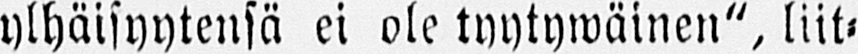ylhäisyytensä ei ole tyytywäinen", liit-
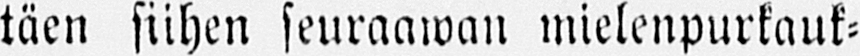täen siihen seuraawan mielenpurkauk-
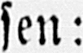sen:
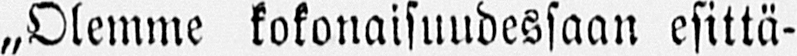„Olemme kokonaisuudessaan esittä-
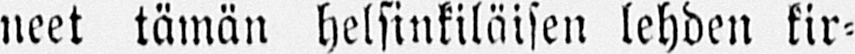neet tämän helsinkiläisen lehden kir-
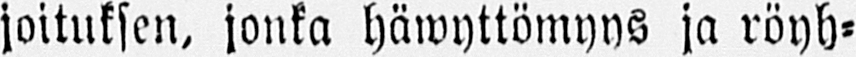joituksen, jonka häwyttömyys ja röyh-
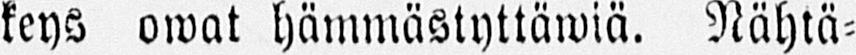keys owat hämmästyttäwiä. Nähtä-
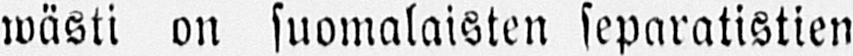wästi on suomalaisten separatistien
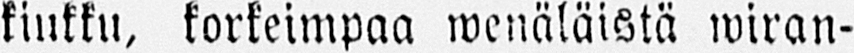kiukku, korkeimpaa wenäläistä wiran-
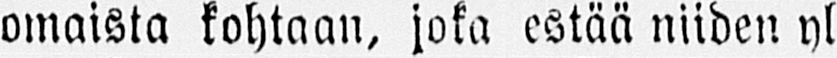omaista kohtaan, joka estää niiden yl-
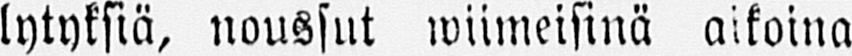lytyksiä, noussut wiimeisinä aikoina
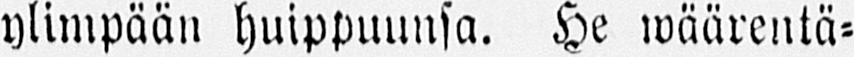ylimpään huippuunsa. He wäärentä-
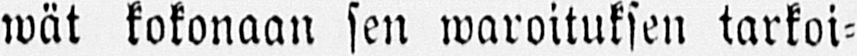wät kokonaan sen waroituksen tarkoi-
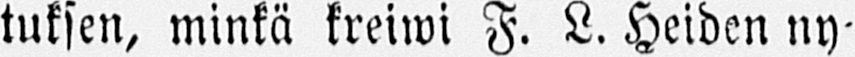tuksen, minkä kreiwi F. L. Heiden ny-
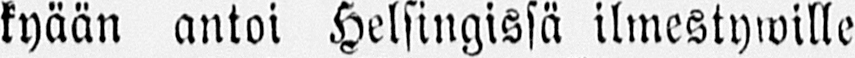kyään antoi Helsingissä ilmestywille
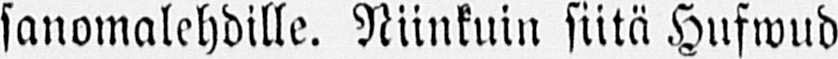sanomalehdille. Niinkuin siitä Hufwud-
